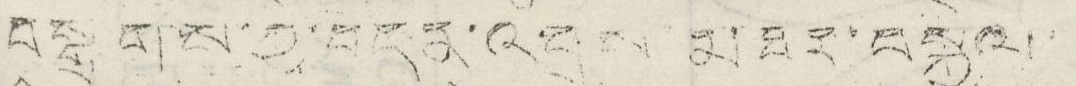བསྒྲགས་ཀྱི་བདེན་འབྲས་མཐར་བསྐྱེལ་
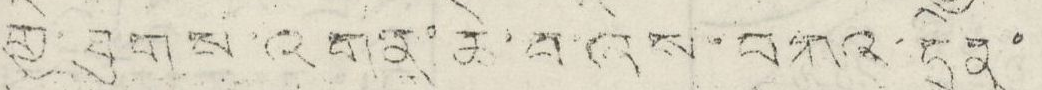གྱི་ཐུགས་འགན་ཆེ་བཞེས་བཀའ་དྲིན་
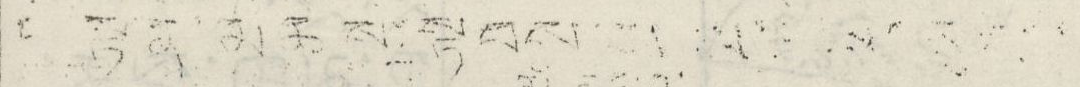སྟན་མཆེས་སྟབས  ས  ས་རུ ་
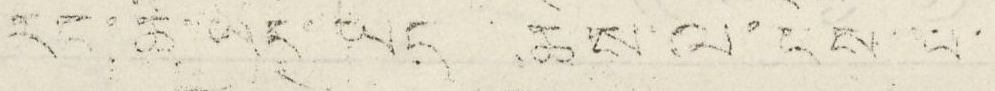རང་ཚོ་ཡང་ཡིད་ཆེས་ལ་ངེས་པ་
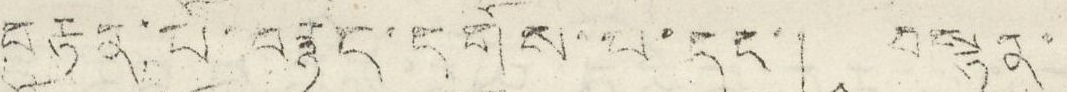བརྟན་པོ་བརྙེད་དགོས་པ་དང་། བསྟན་
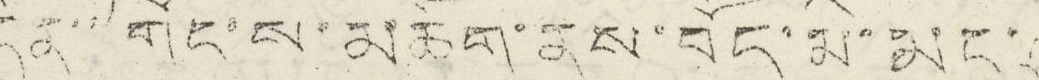དོན་་གོང་ས་མཆོག་ནས་བོད་མི་མང་
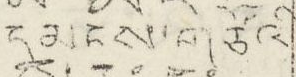དམངས་གཙོའི་
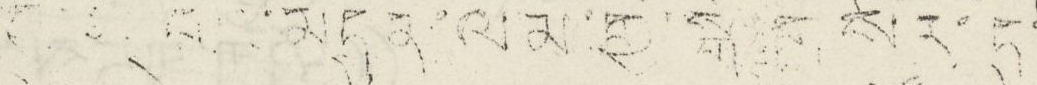གི  བ ་མདུན་ལམ་གྱི་སྒོ་གསར་དུ་
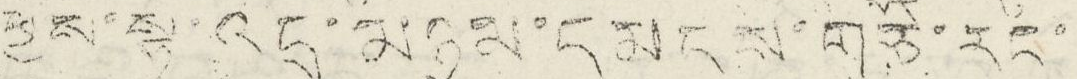ཕྱེས་སྟེ་འདྲ་མཉམ་དམངས་གཙོ་རང་
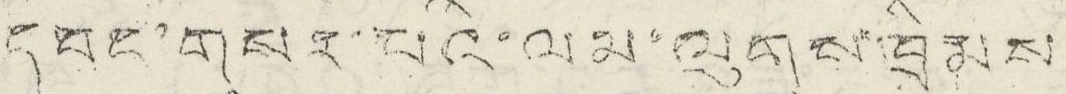དབང་གསར་པའི་ལམ་ལུགས་ཁྲིམས་
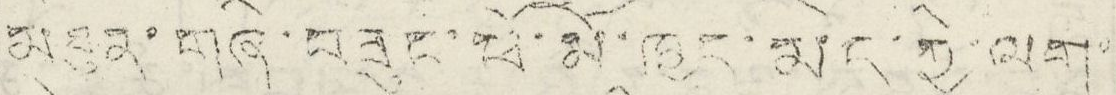མཐུན་གཞི་བཟུང་ཕོ་མོ་ཁྱད་མེད་ཀྱི་ལག་
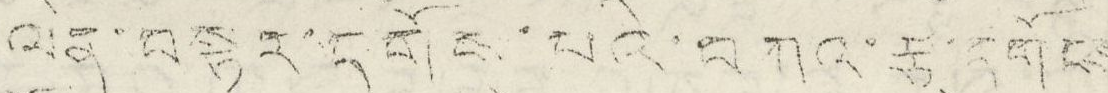ལེན་བསྟན་དགོས་པའི་བཀའ་རྩ་དགོངས་
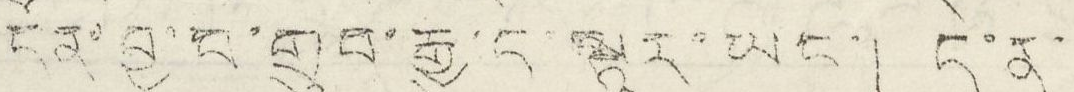དོན་བྱ་བ་གྲུབ་རྒྱུ་དེ་སྟར་ཡང་། དེ་ན་
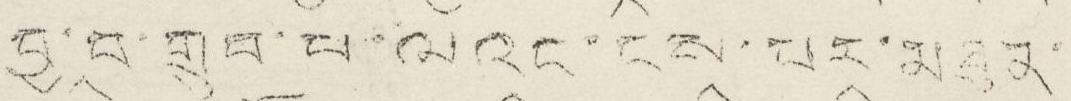བྱ་བ་གྲུབ་པ་ལའང་ངས་པར་མཐུན་
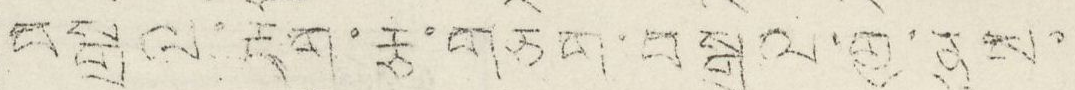བསྒྲིལ་རྡོག་རྩ་གཅིག་བསྒྲིལ་གྱི་ནུས་
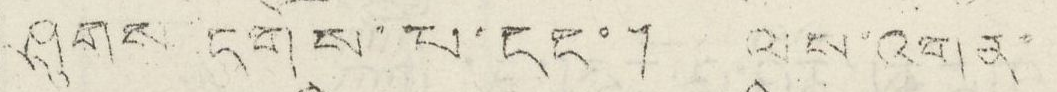ཤུགས་དགོས་པ་དང་། ལས་འགན་
